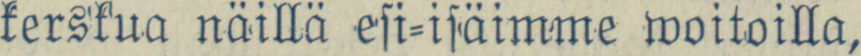kerskua näillä esi-isäimme woitoilla,
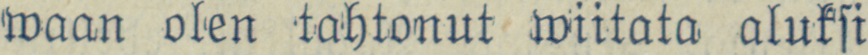waan olen tahtonut wiitata aluksi
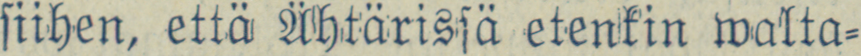siihen, että Ähtärissä etenkin walta-
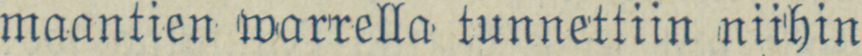maantien warrella tunnettiin niihin
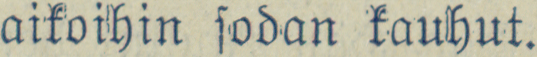aikoihin sodan kauhut.
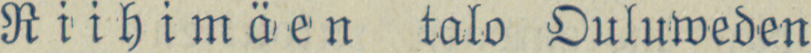Riihimäen talo Ouluweden
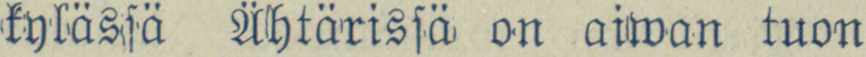kylässä Ähtärissä on aiwan tuon
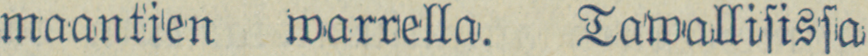maantien warrella. Tawallisissa
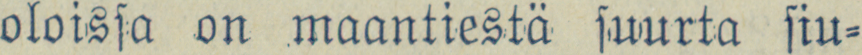oloissa on maantiestä suurta siu-
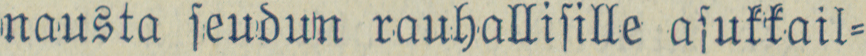nausta seudun rauhallisille asukkail-
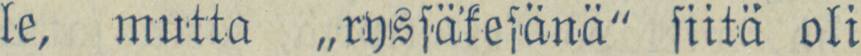le, mutta „ryssäkesänä" siitä oli
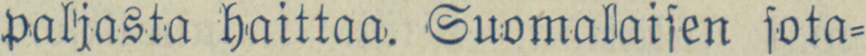paljasta haittaa. Suomalaisen sota-
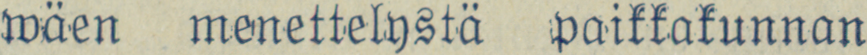wäen menettelystä paikkakunnan
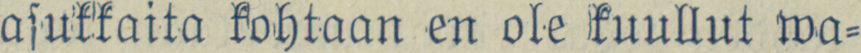asukkaita kohtaan en ole kuullut wa-
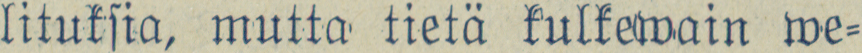lituksia, mutta tietä kulkewain we-
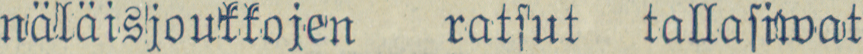näläisjoukkojen ratsut tallasiwat
